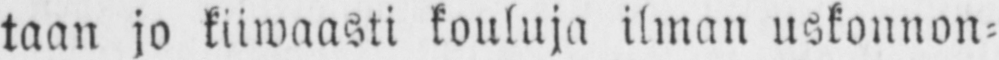taan jo kiiwaasti kouluja ilman uskonnon-
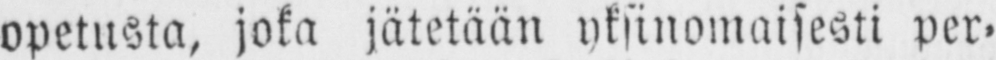opetusta, joka jätetään yksinomaisesti per-
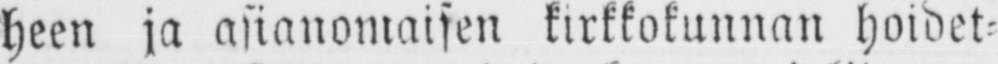heen ja asianomaisen kirkkokunnan hoidet-
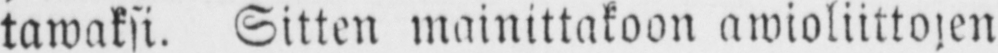tawaksi. Sitten mainittakoon awioliittojen
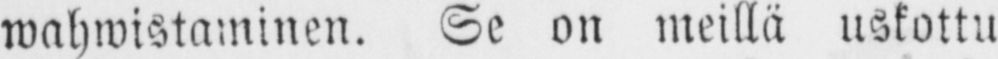wahwistaminen. Se on meillä uskottu
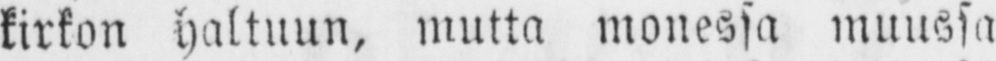kirkon haltuun, mutta monessa muussa
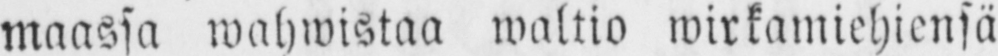maassa wahwistaa waltio wirkamiehiensä
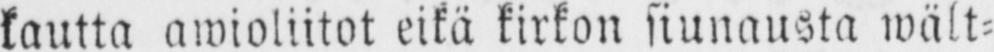kautta awioliitot eikä kirkon siunausta wält-
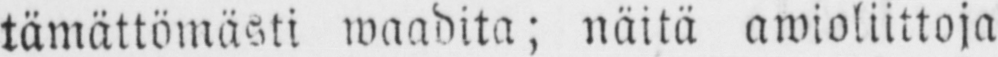tämättömästi waadita; näitä awioliittoja
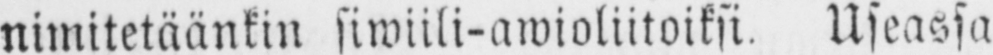nimitetäänkin siwiili-awioliitoiksi. Useassa
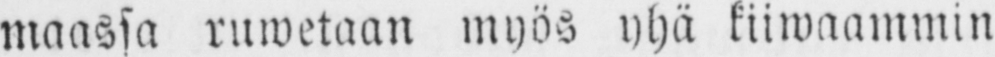maassa ruwetaan myös yhä kiiwaammin
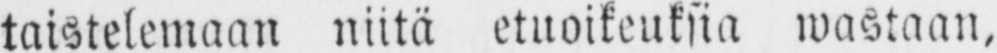taistelemaan niitä etuoikeuksia wastaan,
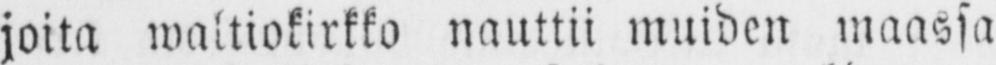joita waltiokirkko nauttii muiden maassa
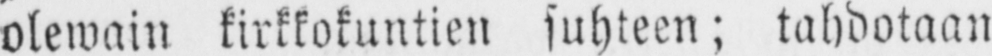olewain kirkkokuntien suhteen; tahdotaan
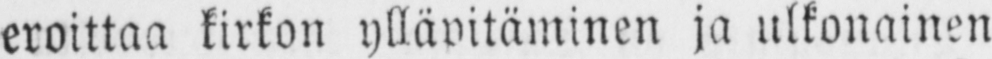eroittaa kirkon yllävitäminen ja ulkonainen
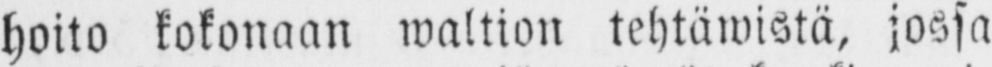hoito kokonaan waltion tehtäwistä, jossa
